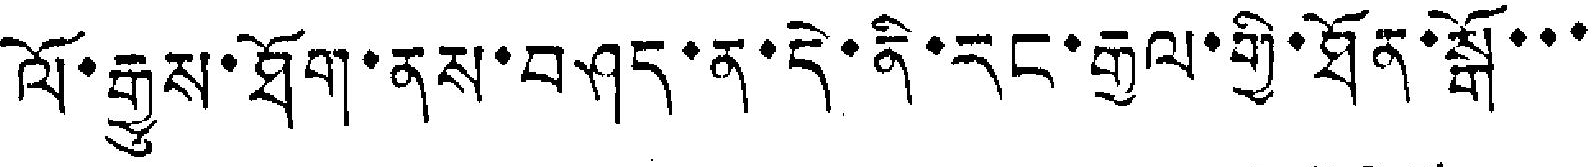ལོ་རྒྱུས་ཐོག་ནས་བཤད་ན་དེ་ནི་རང་རྒྱལ་གྱི་ཐོན་སྒོ་་་
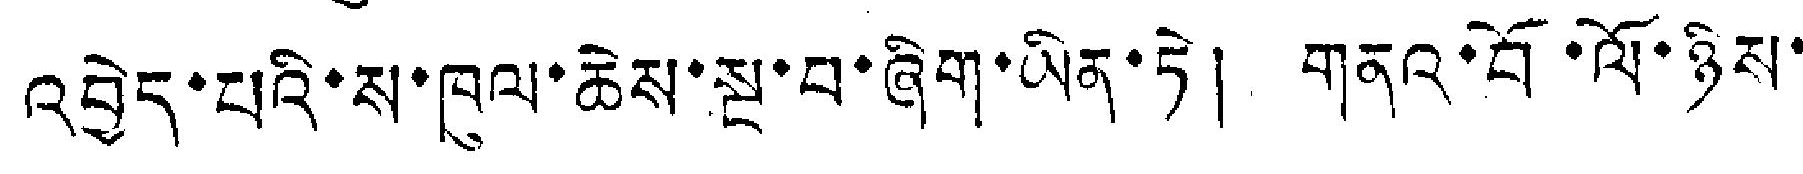འབྱེད་པའི་ས་ཁུལ་ཆེས་སྔ་བ་ཞིག་ཡིན་ཏེ། གནའ་བོ་ལོ་ཉིས་
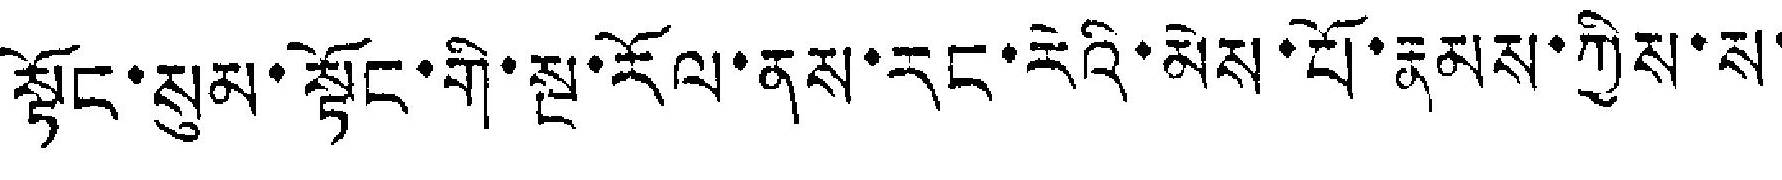སྟོང་སུམ་སྟོང་གི་སྔ་རོལ་ནས་རང་རེའི་མེས་པོ་རྣམས་ཀྱིས་ས་
